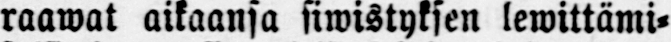raawat aikaansa siwistyksen lewittämi-
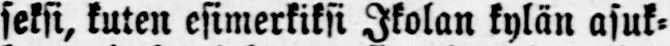seksi, kuten esimerkiksi Ikolan kylän asuk-
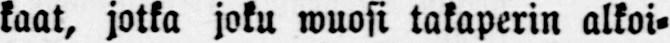kaat, jotka joku wuosi takaperin alkoi-
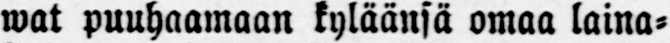wat puuhaamaan kyläänsä omaa laina-
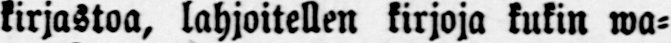kirjastoa, lahjoitellen kirjoja kukin wa-
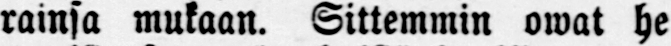rainsa mukaan. Sittemmin owat he
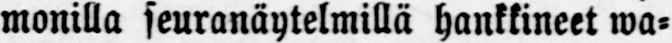monilla seuranäytelmillä hankkineet wa-
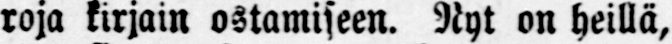roja kirjain ostamiseen. Nyt on heillä,
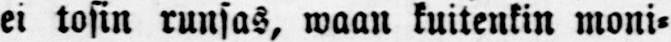ei tosin runsas, waan kuitenkin moni-
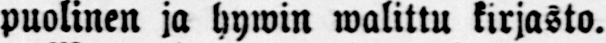puolinen ja hywin walittu kirjasto.
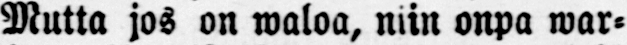Mutta jos on waloa, niin onpa war-
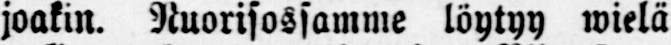joakin. Nuorisossamme löytyy wielä
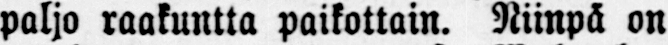paljo raakuutta paikottain. Niinpä on
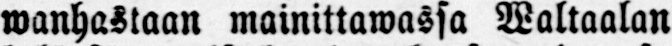wanhastaan mainittawassa Waltaalan
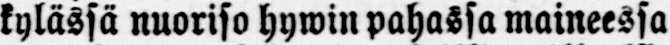kylässä nuoriso hywin pahassa maineessa
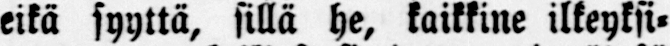eikä syyttä, sillä he, kaikkine ilkeyksi-
